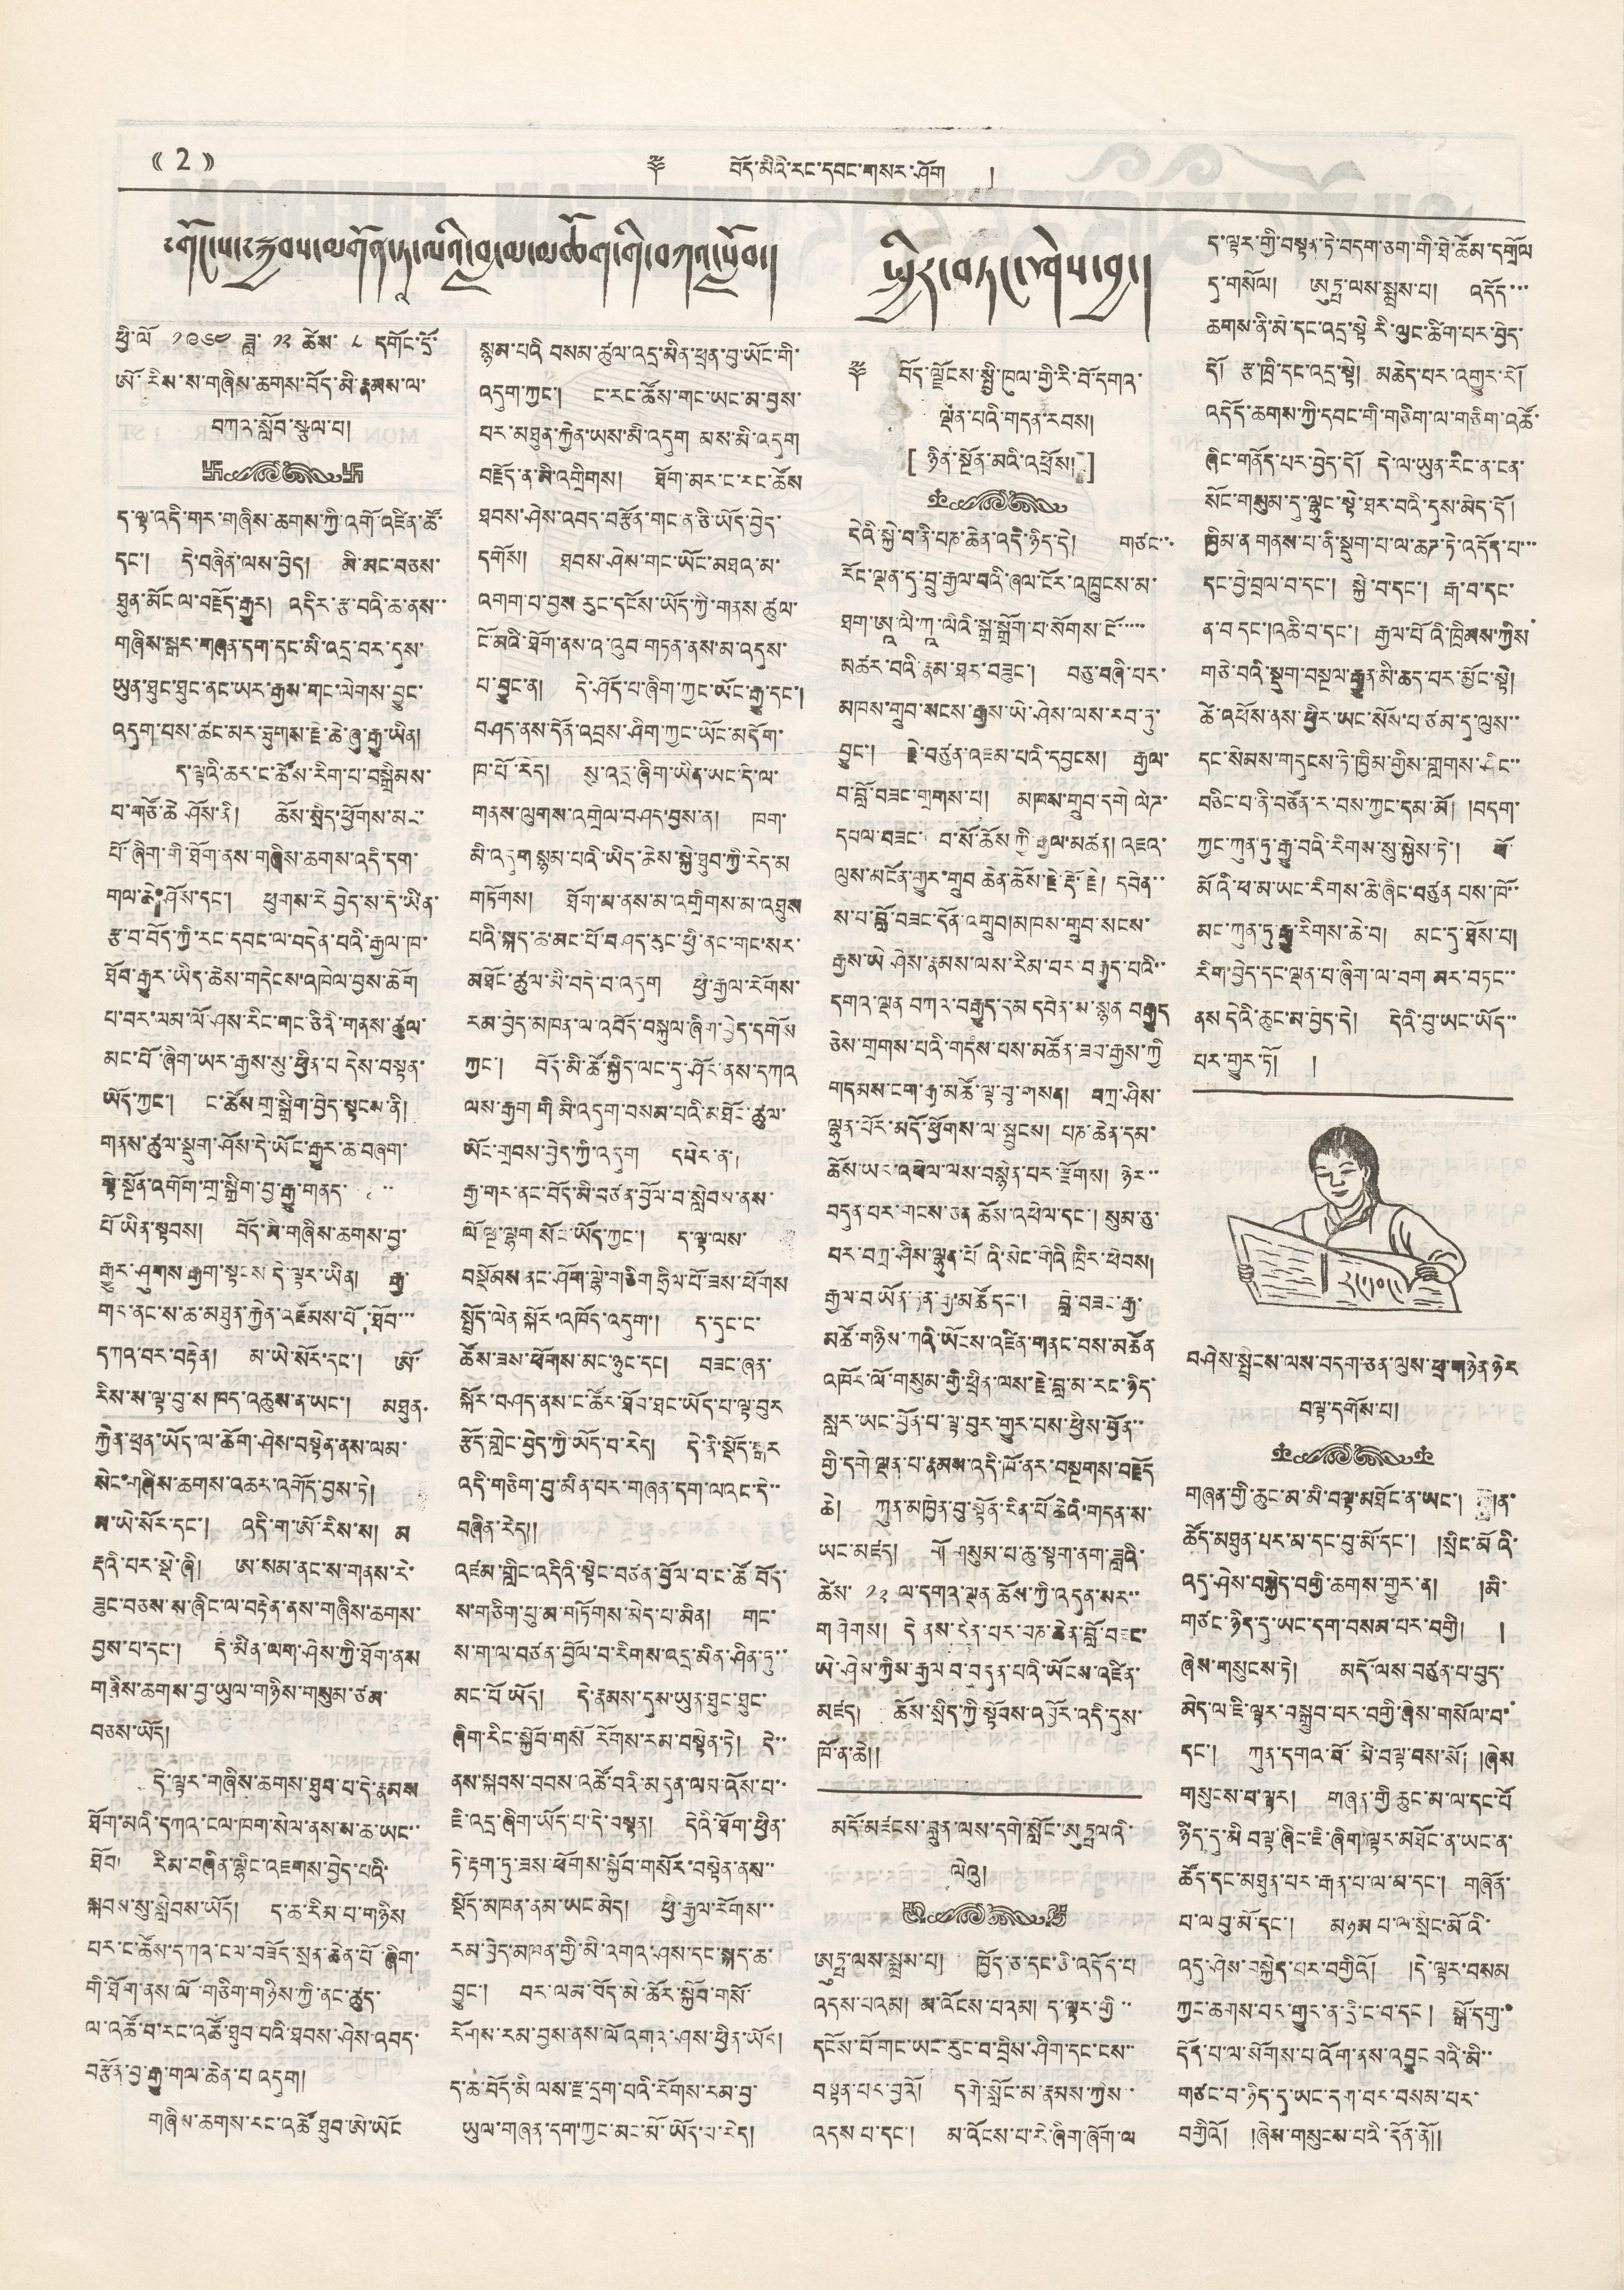(( 2 )) ༈ བོད་མིའི་རང་དབང་གསར་ཤོག །
(( 2 )) ༈ བོད་མིའི་རང་དབང་གསར་ཤོག །
༸གོང་ས་༸སྐྱབས་མགོན་ཏྰ་ལའི་བླ་མ་མཆོག་གི་བཀའ་སློབ།
ཕྱི་ལོ་ ༡༩༦༤ ཟླ་ ༡༢ ཚེས་ ༨ དགོང་དྲོ་
ཨོ་རིས་ས་གཞིས་ཆགས་བོད་མི་རྣམས་ལ་
བཀའ་སློབ་སྩལ་པ།
ད་ལྟ་འདི་གར་གཞིས་ཆགས་ཀྱི་འགོ་འཛིན་ཚོ་
དང་། དེ་བཞིན་ལས་བྱེད། མི་མང་བཅས་
ཐུན་མོང ལ་བརྗོད་རྒྱུར། འདིར་རྩ་བའི་ཆ་ནས་་
གཞིས་སྒར་གཞན་དག་དང་མི་འདྲ་བར་དུས་
ཡུན་ཐུང་ཐུང་ནང་ཡར་རྒྱས་གང་ལེགས་བྱུང་
འདུག་པས་ཚང་མས་ཐུགས་རྗེ་ཆེ་ཞུ་རྒྱ་ཡིན།
ད་ལྟའི་ཆར་ང་ཚོས་རིག་པ་བསྒྲིམས་
པ་གཙོ་ཆེ ཤོས་ནི། ཆོས་སྲིད་ཕྱོགས་མང་
པོ་ཞིག་གི་ཐོག་ནས་གཞིས་ཆགས་འདི་དག་
གལ་ཆེ་ཤོས་དང་། ཕུགས་རེ བྱེད་ས་དེ་ཡིན་
རྩ་བ་བོད་ཀྱི་རང་དབང་ལ་བདེན་པའི་རྒྱལ་ཁ་
ཐོབ་རྒྱུར་ཡིད་ཆེས་གདེངས་འཁེལ་བྱས་ཆོག
པ་བར་ལམ་ལོ་ཤས་རིང་གང་ཅིའི་གནས་ཚུལ་
མང་པོ་ཞིག་ཡར་རྒྱས་སུ་ཕྱིན་པ དེས་བསྟན་
ཡོད་ཀྱང་། ང་ཚོས་གྲ་སྒྲིག་བྱེད་སྟངས་ནི།
གནས་ཚུལ་སྡུག་ཤོས་དེ་ཡོང་རྒྱུར་ཆ་བཞག་
སྟེ་སྔོན་འགོག་གྲ་སྒྲིག་བྱ་རྒྱུ་གནད་
པོ ཡིན་སྟབས། བོད་མི་གཞིས་ཆགས་བྱ་
རྒྱུར་ཤུགས་རྒྱག་སྟངས དེ་ལྟར་ཡིན། རྒྱ་
གར་ནང་ས་ཆ་མཐུན་རྐྱེན་འཛོམས་པོ་ཐོབ་་་
དཀའ་བར་བརྟེན། མ་ཡེ་སོར་དང་། ཨོ་
རིས་ས་ལྟ་བུ་ས ཁད་འཆུས་ན་ཡང་། མཐུན་
རྐྱེན་ཕྲན་ཡོད་ལ་ཆོག་ཤེས་བསྟེན་ནས་ལམ་
སེང་གཞིས་ཆགས་འཆར་འགོད་བྱས་ཏེ།
མ་ཡེ་སོར་དང་། འདི་ག་ཨོ་རིས་ས། མ
རྡའི་པར་སྡེ་ཞི། ཨ་སམ་ནང་ས་གནས་རེ་
ཟུང་བཅས་ས་ཞིང་ལ་བརྟེན་ནས་གཞིས་ཆགས་
བྱས་པ་དང་། དེ་མིན་ལག་ཤེས་ཀྱི་ཐོག་ནས
གཞིས་ཆགས་བྱ་ཡུལ་གཉིས་གསུམ་ཙམ་
བཅས་ཡོད།
དེ་ལྟར་གཞིས་ཆགས་ཐུབ་པ་དེ་རྣམས
ཐོག་མ་དཀའ་ངལ་ཁག་སེལ་ནས་ས་ཆ་ཡང་་
ཐོབ། རིམ་བཞིན་ལྷིང་འཇགས་བྱེད་པའི་
སྐབས་སུ་སླེབས་ཡོད། ད་ཆ་རིམ་པ་གཉིས
པར་ང་ཚོས་དཀའ་ངལ་བཟོད་སྲན་ཆེན་པོ་ཞིག་
གི་ཐོག་ནས་ལོ་གཅིག་གཉིས་ཀྱི་ནང་ཚུད་
ལ་འཚོ་བ་རང་འཚོ་ཐུབ་པའི་ཐབས་ཤེས་འབད་
བརྩོན་བྱ་རྒྱུ་གལ་ཆེན་པ འདུག།
གཞིས་ཆགས་རང་འཚོ་ཐུབ་ཨེ་ཡོང
སྙམ་པའི བསམ་ཚུལ་དྲན་མིན་ཕྲན་བུ་ཡོང་གི་
འདུག་ཀྱང་། ང་རང་ཚོས་གང་ཡང་མ་བྱས་
པར་མཐུན་རྐྱེན་ཡས་མི་འདུག མས་མི་འདུག
བརྗོད་ན་མི་འགྲིགས། ཐོག་མར་ང་རང་ཚོས
ཐབས་ཤེས་འབད་བརྩོན་གང་ན་ཅི་ཡོད་བྱེད་
དགོས། ཐབས་ཤེས་གང་ཡོད་མཐའ་མ་
འགག་པ་བྱས རུང་དངོས་ཡོད་ཀྱི་གནས་ཚུལ་
ངོ་མའི་ཐོན་ནས་འ་འུབ་གཏན་ནས་མ་འདུས་
པ་བྱུང་ན། དེ་ཤོད་པ་ཞིག་ཀྱང་ཡོང་རྒྱུ་དང་།
བཤད་ནས་དོན་འབྲས་ཤིག་ཀྱང་ཡོང་མདོག་
ཁ་པོ་རེད། སུ་འདྲ་ཞིག་ཡིན་ཡང་དེ་ལ་
གནས་ལུགས་འགྲེལ་བཤད་བྱས་ན། ཁག་
མི་འདུག་སྙམ་པའི་ཡིད་ཆེས་སྐྱེ་ཐུབ་ཀྱི་རེད་མ
གཏོགས། ཐོག་མ་ནས་མ་འགྲིགས་མ་འཐུས
པའི་སྐད་ཆ་མང་པོ་བཤད་རུང་ཕྱི་ནང་གང་སར་
མཐོང་ཚུལ་མི་བདེ་བ་འདུག ཕྱི་རྒྱལ་རོགས་
རམ་བྱེད་མཁན་ལ་འབོད་བསྐུལ་ཞིག་བྱེད་དགོས
ཀྱང་། བོད་མི་ཚོ་སྐྱིད་ལང་དུ་ཤོར་ནས་དཀའ
ལས་རྒྱག་གི མི་འདུག་བསམ་པའི་མཐོང་ཚུལ་
ཡོང་གྲབས་བྱེད་ཀྱི་འདུག དཔེར་ན་།
རྒྱ་གར་ནང་བོད་མི་བཙན་བྱོལ་བ་སླེབས་ནས་
ལོ་ལྔ་ལྷག སོང་ཡོད་ཀྱང་། ས་ལྟ་ལས་
བསྡོམས་ནང་ཤོག་ལྷེ་གཅིག ཧྲིལ་པོ་ཟས་ཕོགས
སྤྲོད་ལེན་སྐོར་འཁོད་འདུག་། ད་དུང་ང་
ཚོས་ཟས་ཕོགས་མང་ཉུང་དང་། བཟང་ཞན་
སྐོར་བཤད་ནས་ང་ཚོར་ཐོབ་ཐང་ཡོད་པ་ལྟ་བུར
རྩོད་གླེང་བྱེད་ཀྱི་ཡོད་པ་རེད། དེ་ནི་སྡོད་སྒར
འདི་གཅིག་བུ་མིན་པར་གཞན་དག་ལའང་དེ་་
བཞིན་རེད།།
འཛམ་གླིང་འདིའི་སྟེང་བཙན་བྱོལ་བ་ང་ཚོ་བོད་
ས་གཅིག་པུ་མ་གཏོགས་མེད་པ་མིན། གང་
ས་ག་ལ་བཙན་བྱོལ་བ་རིགས་འདྲ་མིན་ཤིན་ཏུ་་
མང་པོ ཡོད། དེ་རྣམས་དུས་ཡུན་ཐུང་ཐུང་
ཞིག་རིང་སྐྱོབ་གསོ རོགས་རམ་བསྟེན་ཏེ། དེ་་
ནས་སྐབས་བབས་འཚོ་བའི་མདུན་ལམ་འོས་པ་་
ཇི་འདྲ་ཞིག་ཡོད་པ་དེ་བསྟན། དེའི་ཐོག་ཕྱིན་
ཏེ་རྟག་ཏུ་ཟས་ཕོགས་སྐྱོབ་གསོར་བསྟེན་ནས་་
སྡོད་མཁན་ནམ་ཡང་མེད། ཕྱི་རྒྱལ་རོགས་་
རམ་བྱེད་མཁན་གྱི་མི་འགའ་ཤས་དང་སྐད་ཆ་
བྱུང་། བར་ལམ་བོད་མི་ཚོར་སྐྱོབ་གསོ་
རོགས་རམ་བྱས་ན་ལོ འགའ་ཤས་ཕྱིན་ཡོད།
ད་ཆ་བོད་མི ལས་རྫ་དྲག་པའི་རོགས་རམ་བྱ་
ཡུལ་གཞན་དག་ཀྱང་མང་པོ་ཡོད་པ་རེད།
སྤྱིར་བཏང་ཤེས་བྱ།
༈ བོད་ལྗོངས་སྤྱི་ཁུལ་གྱི་རི་བོ་དགའ་
ལྡན་པའི་གདན་རབས།
[ ཉིན་སྔོན་མའི་འཕྲོས། ]
དེའི་སྐྱེ་བ་ནི་པཎ་ཆེན་འདི་ཉིད་དེ། གཙང་་་
རོང་ལྡན་དུ་བྲུ་རྒྱལ་བའི་ཞལ་ངོར་འཁྲུངས་མ་
ཐག་ཨྰ་ལི་ཀྰ་ལིའི་སྒྲ་སྒྲོག་པ་སོགས་ངོ་་་་་་
མཚར་བའི་རྣམ་ཐར་བཟུང་། བཅུ་བཞི་པར་
མཁས་གྲུབ་སངས་རྒྱས་ཡེ་ཤེས་ལས་རབ་ཏུ་
བྱུང་། རྗེ་བཙུན་འཇམ་པའི་དབྱངས། རྒྱལ་
བ་བློ་བཟང་གྲགས་པ། མཁས་གྲུབ་དགེ་ལེཌ་
དཔལ་བཟང་ བ་སོ་ཆོས ཀྱི་རྒྱལ་མཚན། འཇའ་
ལུས་མངོན་གྱུར་གྲུབ ཆེན་ཆོས་རྗེ་རྡོ་རྗེ། དབེན་་
ས་པ་བློ་བཟང་དོན་གྲུབ།མཁས་གྲུབ་སངས་
རྒྱས་ཡེ ཤེས་རྣམས་ལས་རིམ་པར་བརྒྱུད་པའི་་
དགའ་ལྡན བཀའ་བརྒྱུད་དམ དབེན་ས་སྙན བརྒྱུད
ཅེས་གྲགས་པའི་གདཾས་པས་མཚོན་ཟབ་རྒྱས་ཀྱི
གདམས་ངག་རྒྱ་མཚོ་ལྟ་བུ་གསན། བཀྲ་ཤིས་
ལྷུན་པོར་མདོ་ཕྱོགས་ལ་སྦྱངས། པཎ་ཆེན་དམ་
ཆོས་ཡང་འཕེལ་ལས་བསྙེན་པར་རྫོགས། ཉེར་་
བདུན་པར་གངས་ཅན ཆོས་འཕེལ་དང་། སུམ་ཅུ་
པར་བཀྲ་ཤིས་ལྷུན་པོའི་སེང་གེའི ཁྲིར་ཕེབས།
རྒྱལ་བ་ཡོན་ཏན་རྒྱ་མཚོ་དང་། བློ་བཟང་རྒྱ་
མཚོ་གཉིས་ཀའི་ཡོངས་འཛིན་གནང་པས་མཚོན
འཁོར་ལོ་གསུམ་གྱི་ཕྲིན་ལས་རྗེ་བླ་མ་རང་ཉིད་
སླར་ཡང་བྱོན་པ་ལྟ་བུར་གྱུར་པས་ཕྱིས་བྱོན་་་
གྱི་དགེ་ལྡན་པ་རྣམས་འདི་ཁོ་ནར་བསྔགས་བརྗོད
ཆེ། ཀུན་མཁྱེན་བུ་སྟོན་རིན་པོ་ཆེའི་གདན་ས་
ཡང་མཛད། གོ གསུམ་པ་ཆུ་སྟག་ནག་ཟླའི་
ཚེས་ ༡༢ ལ་དགའ་ལྡན་ཆོས་ཀྱི་འདུན་སར་་
གཤེགས། ་དེ་ནས་རིན་པར་པཎ་ཆེན་བློ་བཟང་
ཡེ་ཤེས་ཀྱིས་རྒྱལ བ་བདུན་པའི་ཡོངས་འཛིན་
མཛད། ཆོས་སྲིད་ཀྱི་སྟོབས་འབྱོར་འདི་དུས་
ཁོ་ན་ཆེ།།
མདོ་མཛངས་བླུན་ལས་དགེ་སློང་ཨུཏྤལའི་
ལེའུ།
ཨུཏྤ་ལས་སྨྲས་པ། ཁྱོད་ཅ་དང་ཅི་འདོད་པ
འདས་པའམ། མ་འོངས་པའམ། ད་ལྟར་གྱི་་
དངོས་པོ་གང་ཡང་རུང་བ་བྲིས་ཤིག་དང་ངས་་
བསྟན་པར་བྱའོ། དགེ་སློང་མ་རྣམས་ཀྱིས་་
འདས པ་དང། མ་འོངས་པ་རེ་ཞིག་ཞིག་ལ
ད་ལྟར་གྱི་བསྟན་ཏེ་བདག་ཅག་གི་ཐེ་ཚོམ་དགྲོལ
དུ་གསོལ། ཨུཏྤ་ལས་སྨྲས་པ། འདོད་་་
ཆགས་ནི་མེ་དང་འདྲ་སྟེ རི་ལུང་ཚིག་པར་བྱེད་
དོ། རྩ་ཁྲི་དང་འདྲ་སྟེ། མཆེད་པར་འགྱུར་རོ།
འདོད་ཆགས་ཀྱི་དབང་གི་གཅིག་ལ་གཅིག་འཚོ་
ཞིང་གནོད་པར་བྱེད་དོ། དེ་ལ་ཡུན་རིང་ན་ངན་
སོང་གསུམ་དུ་ལྷུང་སྟེ་ཐར་བའི་དུས་མེད་དོ།
ཁྱིམ་ན གནས་པ་ནི་སྡུག་པ་ལ་ཆཌ་ཏེ་འདོད་པ་་་
དང་བྱེ་བྲལ་བ་དང་། སྐྱེ་བ་དང་། རྒ་བ་དང་
ན་བ དང་། འཆི་བ་དང་། རྒྱལ་པོའི་ཁྲིམས་ཀྱིས
གཅེས་བའི་སྡུག་བསྔལ་རྒྱུན་མི་ཆད་པར་མྱོང་སྟེ།
ཚེ་འཕོས་ནས་ཕྱིར་ཡང་སོས་པ ཙམ་དུ་ལུས་་
དང་སེམས་གདུངས་ཏེ་ཁྱིམ་གྱིས་གླགས་ཤིང་་
བཅིང་བ་ནི་བཙོན་ར་བས་ཀྱང་དམ་མོ། །བདག་
ཀྱང་ཀུན་ཏྱ་རྒྱུ་བའི་རིགས་སུ་སྐྱེས་ཏེ་། བོ་
མོའི་ཕ་མ་ཡང་རིགས་ཆེ་ཞིང་བཙུན པས་ཁོ་་
མང་ཀུན་ཏུ་རྒྱུ་རིགས་ཆེ་བ། མང་དུ་ཐོས་པ།
རིག་བྱེད་དང་ལྡན་པ་ཞིག་ལ་བག མར་བཏང་་
ནས དེའི་ཆུང་མ་བྱེད་དེ། དེའི་བུ་ཡང་ཡོད་་
པར་གྱུར་ཏོ། །
རང་དབང་
བཤེས་སྤྲིངས་ལས་བདག་ཅན་ལུས་ཕྲ་གཉེན་ཉེར
བལྟ་དགོས་པ།
གཞན་གྱི་ཆུང་མ་མི་བལྟ་མཐོང་ན་ཡང་། །ན་
ཚོད་མཐུན་པར་མ་དང་བུ་མོ་དང་། །སྲིང་མོའི་
འདུ་ཤེས་བསྐྱེད་བགྱི་ཆགས་གྱུར་ན། །མི་
གཙང་ཉིད་དུ་ཡང་དག་བསམ་པར་བགྱི། །
ཞེས་གསུངས་ཏེ། མདོ་ལས་བཙུན་པ་བུད་
མེད་ལ་ཇི་ལྟར་བསྒྲུབ་པར་བགྱི་ཞེས་གསོལ་བ་
དང་། ཀུན་དགའ་བོ་མི་བལྟ་བས་སོ། ཞེས
གསུངས་པ་ལྟར། གཞན་གྱི ཆུང་མ་ལ་དང་པོ
ཉིད་དུ་མི བལྟ་ཞིང་ཇི་ཞིག་ལྟར་མཐོང་ན་ཡང་ན་
ཚོད་དང་མཐུན་པར་རྒད་པ་ལ་མ་དང་། གཞོན་
པ་ལ་བུ་མོ་དང་། མཉམ པ་ལ་སྲིང་མོའོ་
འདུ་ཤེས་བསྐྱེད་པར་བགྱིའི། །དེ་ལྟར་བསམ
ཀྱང་ཆགས་པར་གྱུར་ན་དྲི་ང་བ་དང། སྒོ་དགུ་་
དོད་པ་ལ་སོགས་པ་འོག་ནས་འབྱུང བའི་མི་་
གཙང་བ་ཉིད་དུ་ཡང་དག་བར་བསམ་པར་
བགྱིའོ། །ཞེས་གསུངས་པའི་དོན་ནོ།།
